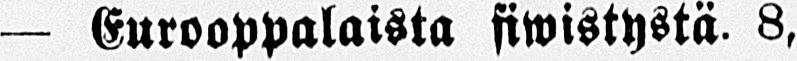— Eurooppalaista fiwistystä 8,
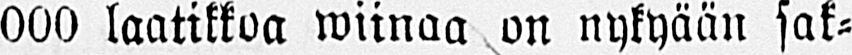000 laatikkoa wiinaa on nykyään sak-
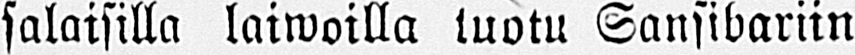salaisilla laiwoilla tuotu Sansibariin
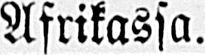Afrikassa.
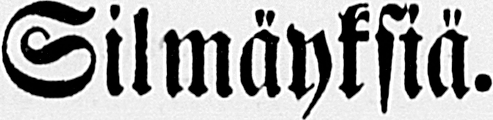Silmäyksiä.
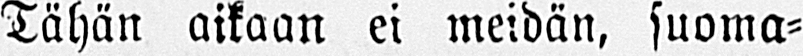Tähän aikaan ei meidän, suoma-
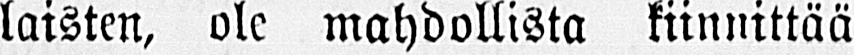laisten, ole mahdollista kiinnittää
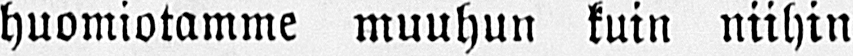huomiotamme muuhun kuin niihin
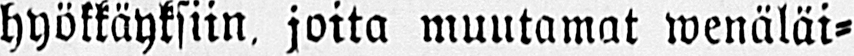hyökkäyksiin, joita muutamat wenäläi-
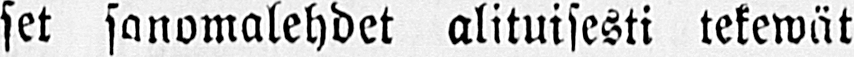set sanomalehdet alituisesti tekewät
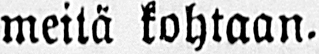meitä kohtaan.
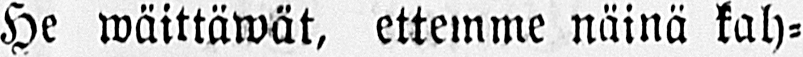He wäittäwät, ettemme näinä kah-
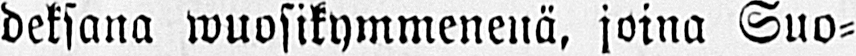deksana wuosikymmenenä, joina Suo-
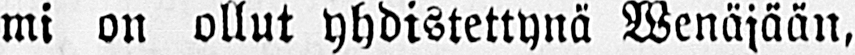mi on ollut yhdistettynä Wenäjään,
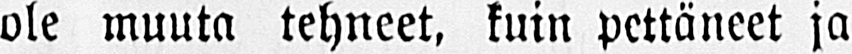ole muuta tehneet, kuin pettäneet ja
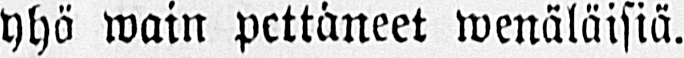yhä wain pettäneet wenäläisiä.
